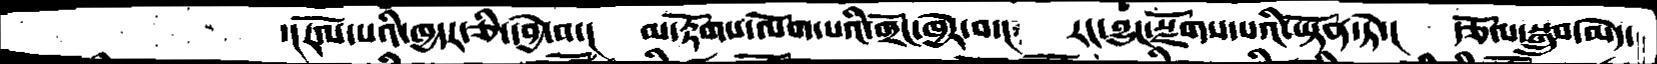་།རོལ་པའི་ཁྱདར་ཅི་དབྱེ་བ་།  མ་རྟོགས་ལོག་པའི་གྲོང་ཁྱེར་བ་།  རང་བྱུང་སྫོགས་པའི་ཡྟོན་ཏེ་།   རྩོལ་སྒྲུབ་མེད་
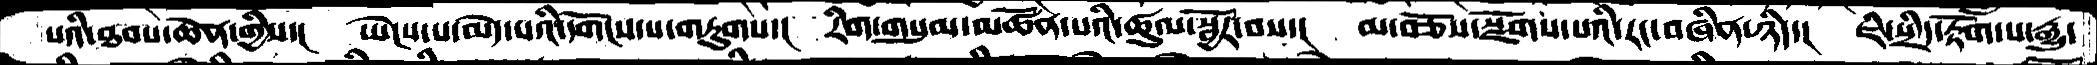པའི་ཐབས་ཆེན་གྱིས་།  ཡེངས་པ་མེད་པའི་དགོངས་པ་གཏུགས་།  རིག་གསུམ་མཚོན་པའི་ཚུལ་སྦྱོར་བས་།  མ་བཅོས་སྫོགས་པའི་རང་བཞིན་ཉིད་།  ཇི་སྲིད་རྟོག་པ་རྒྱུ་
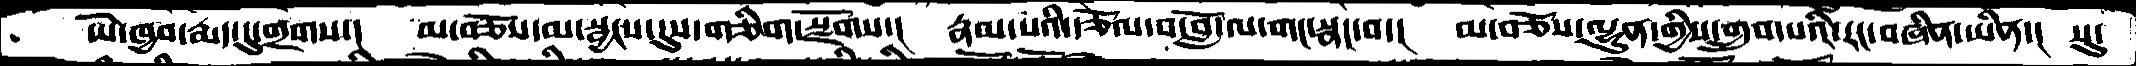ཡེ་ཁྱབ་རྨད་དུ་གྲགས་།   མ་བཅོས་དམ་སྦྱངས་དུས་གཅིག་སྫོགས་།  རྣམ་པའི་རྩོལ་བ་བློ་ལ་གང་སྣང་བ་།  མ་བཅོས་ལྷུན་གྱིས་གྲུབ་པའི་རང་བཞིན་ཡིན་།  སུ་
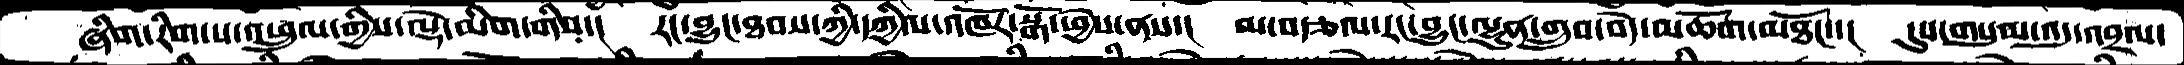ཞིག་རིག་པ་འཕྲུལ་གྱིས་ལྡེ་མིག་གིས་།  རང་བྱུང་ཐབས་ཀྱི་དཀྱིལ་འཁོར་སྒོ་ཕྱེས་ནས་།  མ་བརྩལ་རང་བྱུང་ལྷུན་གྲུབ་བདེ་མཆོག་མཐོང་།  དུས་གསུམ་འདུ་འབྲལ་
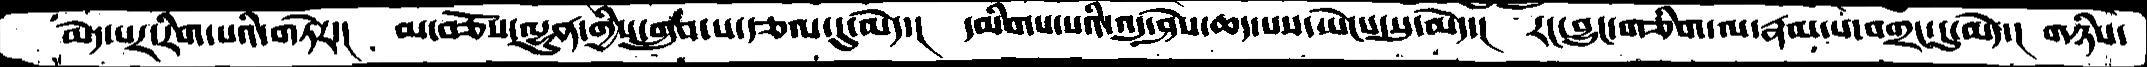མེད་པར་རིག་པའི་གཏེར་།  མ་བཅོས་ལྷུན་གྱིས་གྲུབ་པ་རྩལ་དུ་མེད་།  དམིགས་པའི་འདུ་ཤེས་ཆད་པས་ཡེངས་སུ་མེད་།  རང་བྱུང་གཅིག་ལ་རྣམ་པ་བགྲང་དུ་མེད་།  གཉིས་
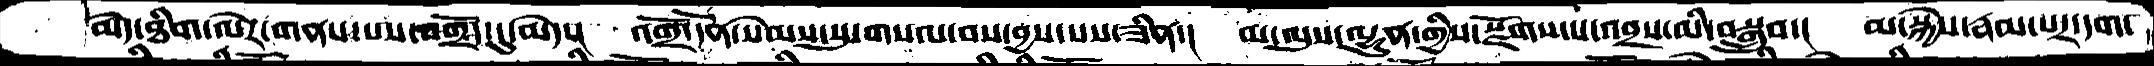མེད་ཐིག་ལེར་གནས་པས་བགྲོད་དུ་མེད་། འགྲོ་དོན་སེམས་སུ་གསལ་བས་བྱས་པས་ཟིན་། མ་ལུས་ལྷུན་གྱིས་རྫོགས་པ་འབྲས་མི་བསྒྲུབ་། མ་སྐྱེས་རྣམ་པར་དག་
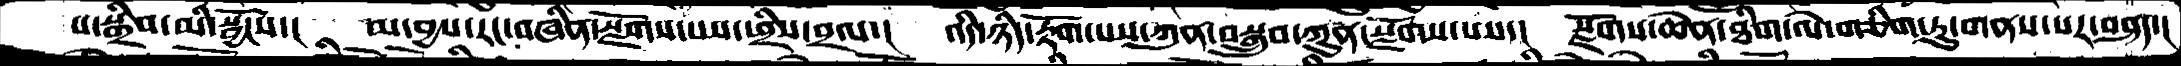ས་སྒྲིབ་མི་སྦྱོངས་།  མ་བྱས་རང་བཞིན་སྫོགས་པས་ཕྲིས་བྲལ་།  འདི་ཉིད་རྟོག་པས་ཀུན་བསྒྲུབ་ཀུན་སྫོགས་པས་།  སྫོགས་ཆེན་ཐིག་ལེ་གཅིག་ཏུ་གནས་པར་བཤད་།
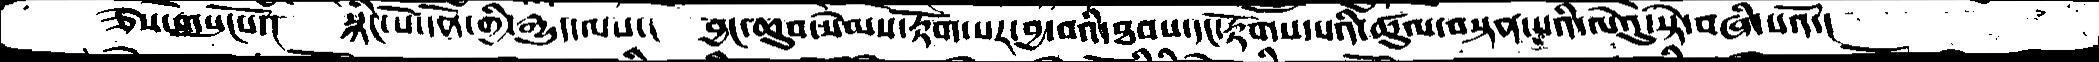ཅེས་གསུངསོ་།  སྙིང་པོ་དོན་གྱི་རྒྱུད་ལས་།  བྱང་ཆུབ་སེམས་རྟོག་པར་བྱ་བའི་ཐབས་དང་རྟོགས་པའི་ཚུལ་བསྟན་པའི་ལེའུ་སྟེ་བཞི་པའོ་།
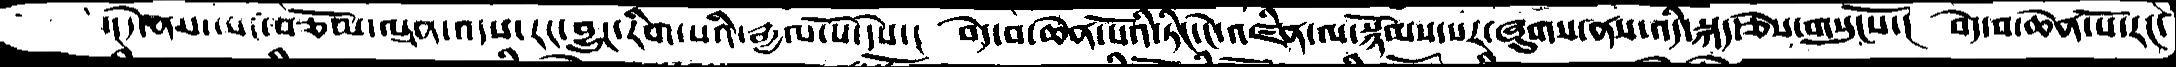་།དེ་ནས་ཡང་བཅོམ་ལྡན་འདས་རང་བྱུང་རིག་པའི་རྒྱལ་པོ་དེས་།  བདེ་བ་ཆེན་པོའི་ཏིང་ངེ་འཛིན་ལ་སྙོམས་པར་ཞུགས་ནས་འདི་སྐད་ཅེས་གསུངསོ་།  བདེ་བ་ཆེན་པོ་རང་
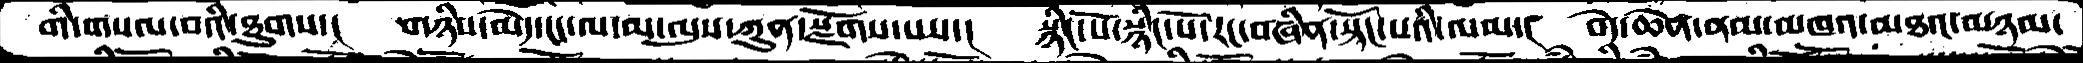གི་གསལ་བའི་ཐུགས་།   གཉིས་མེད་ངང་ལ་མ་ལུས་ཀུན་སྫོགས་པས་།    སྙིང་པོ་སྙིང་པོ་རང་བཞིན་སྟོང་པའི་ལམ་།   བདེ་ཆེན་ནམ་མཁའ་མཐའ་མཉམ་
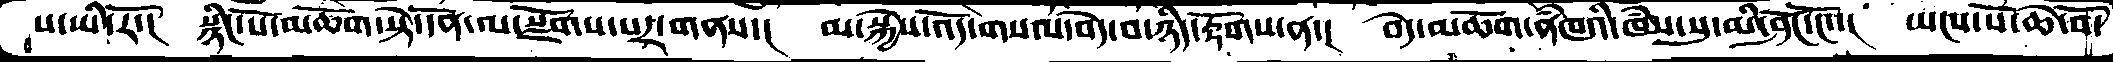ས་ཡི་རོ་།   སྙིང་པོ་མཆོག་སྟེ་དོན་ལ་སྫོགས་པར་གནས་།   མ་སྐྱེས་འོད་གསལ་བདེ་བ་ཉིད་རྟོགས་ན་།   བདེ་མཆོག་ནཾཁའི་ཁཾས་སུ་མི་ཤོང་ངོ་།   ཡངས་སོ་ཆེ་བོ་
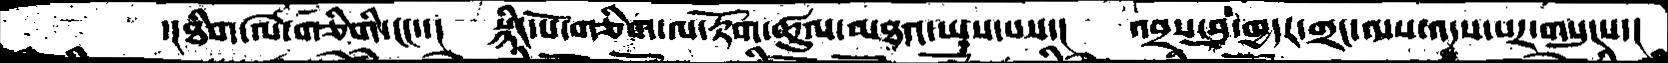་།ཐིིག་ལེ་གཅིགི་ངང་་།   སྙིང་པོ་གཅིག་ལ་རྟོག་ཚུལ་མཐའ་ཡས་པས་།   འབྲས་བུ་ཁྱདར་གྲང་ལས་འདས་པར་གསུངས་།
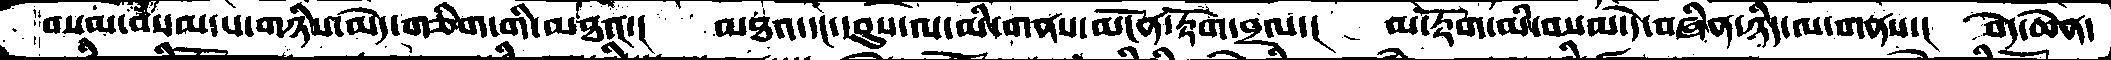བསམ་བསམ་པ་གཉིས་མེད་གཅིག་གི་མཐའ་།    མཐའ་དང་དབུས་ལ་མི་གནས་མངོན་རྟོག་བྲལ་།   མ་རྟོག་མི་བསམ་དེ་བཞིན་ཉིད་ལ་གནས་།   བདེ་ཆེན་
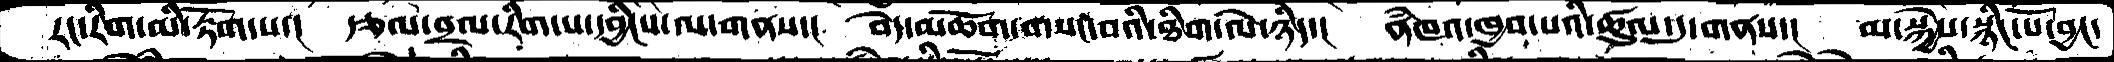རང་རིག་མི་རྟོག་པ་།  རྩལ་བྲལ་རིག་པ་དབྱིངས་ལ་གནས་།  བདེ་མཆོག་གསང་བའི་ཐིག་ལེ་ཉིད་།  ནཾཁའ་ཁྱབ་པའི་ཚུལ་དུ་གནས་།  མ་སྐྱེས་སྙིང་པོ་བྱང་
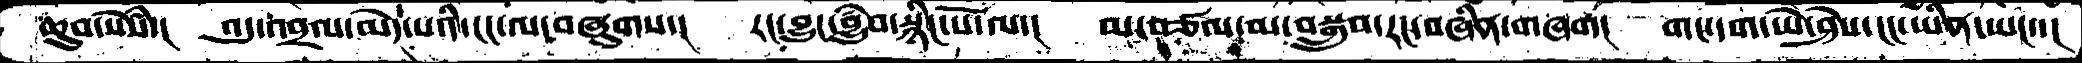ཆུབ་སེསཾ་།  འདུ་འབྲལ་མེད་པའི་ངང་ལ་བཞུགས་།  རང་བྱུང་བྱུཾབ་སྙིང་པོ་ལ་།  མ་བཙལ་མ་བསྒྲུབ་རང་བཞིན་གཞག།  གང་དག་ཡེ་ཤེས་ངང་ཡིན་ཡང་་།
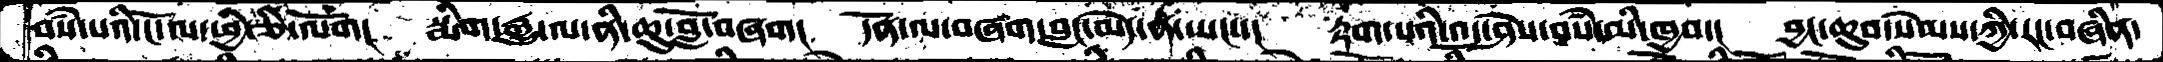བསཾ་པའི་ངོ་ལ་ཕྱི་ཅི་ལོག།  སྨིག་རྒྱུ་ལ་ནི་ཆུ་བློ་བཞག།  དོན་ལ་བཞག་བླང་མེད་ན་ཡང་་།  རྟག་པའི་འདུ་ཤེས་བསཾ་མི་ཁྱབ་།  བྱང་ཆུབ་སེམས་ཀྱི་རང་བཞིན་
